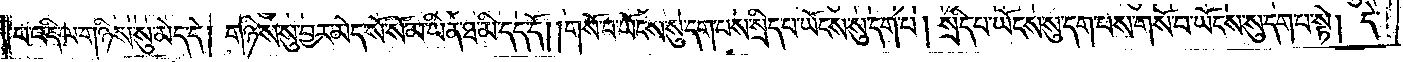པ་འདི་ལ་གཉིས་སུ་མེད་དེ། གཉིས་སུ་བྱར་མེད་སོ་སོ་མ་ཡིན་ཐ་མི་དད་དོ། །གསོ་བ་ཡོངས་སུ་དག་པས་སྲིད་པ་ཡོངས་སུ་དག་པ། སྲིད་པ་ཡོངས་སུ་དག་པས་གསོ་བ་ཡོངས་སུ་དག་པ་སྟེ། དེ་
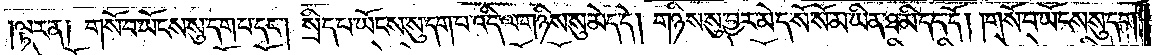ལྟར་ན༑ གསོ་བ་ཡོངས་སུ་དག་པ་དང༌། སྲིད་པ་ཡོངས་སུ་དག་པ་འདི་ལ་གཉིས་སུ་མེད་དེ། གཉིས་སུ་བྱར་མེད་སོ་སོ་མ་ཡིན་ཐ་མི་དད་དོ། །གསོ་བ་ཡོངས་སུ་དག་
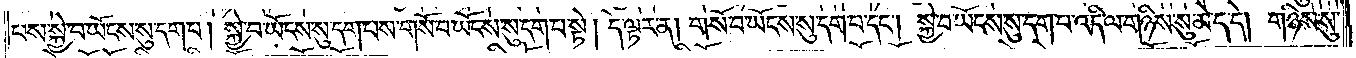པས་སྐྱེ་བ་ཡོངས་སུ་དག་པ། སྐྱེ་བ་ཡོངས་སུ་དག་པས་གསོ་བ་ཡོངས་སུ་དག་པ་སྟེ། དེ་ལྟར་ན། གསོ་བ་ཡོངས་སུ་དག་པ་དང༌། སྐྱེ་བ་ཡོངས་སུ་དག་པ་འདི་ལ་གཉིས་སུ་མེད་དེ། གཉིས་སུ་
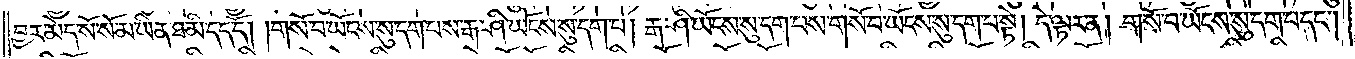བྱར་མེད་སོ་སོ་མ་ཡིན་ཐ་མི་དད་དོ། །གསོ་བ་ཡོངས་སུ་དག་པས་རྒ་ཤི་ཡོངས་སུ་དག་པ། རྒ་ཤི་ཡོངས་སུ་དག་པས་གསོ་བ་ཡོངས་སུ་དག་པ་སྟེ། དེ་ལྟར་ན། གསོ་བ་ཡོངས་སུ་དག་པ་དང༌།
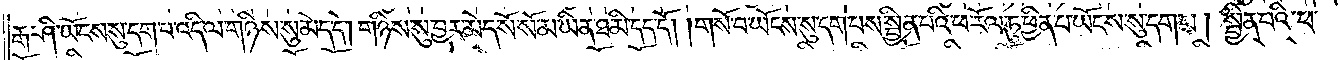རྒ་ཤི་ཡོངས་སུ་དག་པ་འདི་ལ་གཉིས་སུ་མེད་དེ། གཉིས་སུ་བྱར་མེད་སོ་སོ་མ་ཡིན་ཐ་མི་དད་དོ། །གསོ་བ་ཡོངས་སུ་དག་པས་སྦྱིན་པའི་ཕ་རོལ་ཏུ་ཕྱིན་པ་ཡོངས་སུ་དག་པ། སྦྱིན་པའི་ཕ་
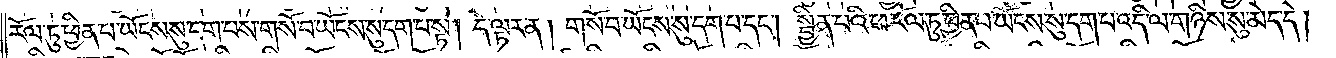རོལ་ཏུ་ཕྱིན་པ་ཡོངས་སུ་དག་པས་གསོ་བ་ཡོངས་སུ་དག་པ་སྟེ། དེ་ལྟར་ན། གསོ་བ་ཡོངས་སུ་དག་པ་དང༌། སྦྱིན་པའི་ཕ་རོལ་ཏུ་ཕྱིན་པ་ཡོངས་སུ་དག་པ་འདི་ལ་གཉིས་སུ་མེད་དེ།
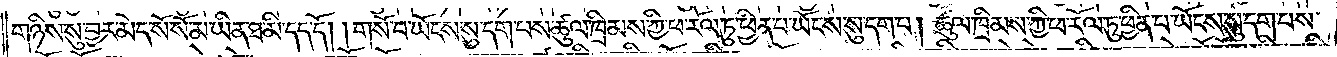གཉིས་སུ་བྱར་མེད་སོ་སོ་མ་ཡིན་ཐ་མི་དད་དོ། །གསོ་བ་ཡོངས་སུ་དག་པས་ཚུལ་ཁྲིམས་ཀྱི་ཕ་རོལ་ཏུ་ཕྱིན་པ་ཡོངས་སུ་དག་པ། ཚུལ་ཁྲིམས་ཀྱི་ཕ་རོལ་ཏུ་ཕྱིན་པ་ཡོངས་སུ་དག་པས་
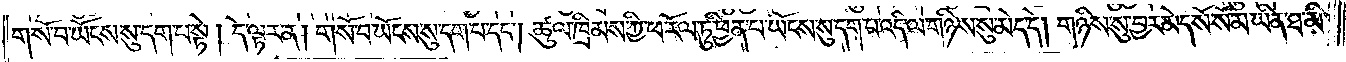གསོ་བ་ཡོངས་སུ་དག་པ་སྟེ། དེ་ལྟར་ན། གསོ་བ་ཡོངས་སུ་དག་པ་དང༌། ཚུལ་ཁྲིམས་ཀྱི་ཕ་རོལ་ཏུ་ཕྱིན་པ་ཡོངས་སུ་དག་པ་འདི་ལ་གཉིས་སུ་མེད་དེ། གཉིས་སུ་བྱར་མེད་སོ་སོ་མ་ཡིན་ཐ་མི་
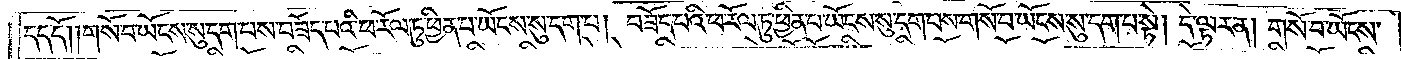དད་དོ། །གསོ་བ་ཡོངས་སུ་དག་པས་བཟོད་པའི་ཕ་རོལ་ཏུ་ཕྱིན་པ་ཡོངས་སུ་དག་པ། བཟོད་པའི་ཕ་རོལ་ཏུ་ཕྱིན་པ་ཡོངས་སུ་དག་པས་གསོ་བ་ཡོངས་སུ་དག་པ་སྟེ། དེ་ལྟར་ན། གསོ་བ་ཡོངས་
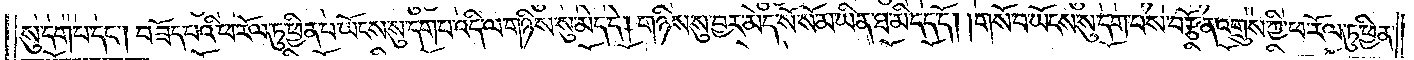སུ་དག་པ་དང༌། བཟོད་པའི་ཕ་རོལ་ཏུ་ཕྱིན་པ་ཡོངས་སུ་དག་པ་འདི་ལ་གཉིས་སུ་མེད་དེ། གཉིས་སུ་བྱར་མེད་སོ་སོ་མ་ཡིན་ཐ་མི་དད་དོ། །གསོ་བ་ཡོངས་སུ་དག་པས་བརྩོན་འགྲུས་ཀྱི་ཕ་རོལ་ཏུ་ཕྱིན་
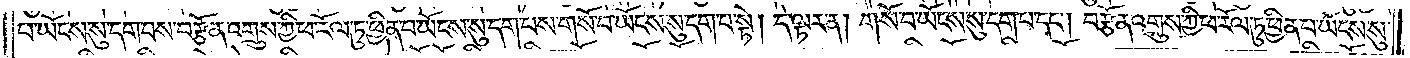པ་ཡོངས་སུ་དག་པས་བརྩོན་འགྲུས་ཀྱི་ཕ་རོལ་ཏུ་ཕྱིན་པ་ཡོངས་སུ་དག་པས་གསོ་བ་ཡོངས་སུ་དག་པ་སྟེ། དེ་ལྟར་ན། གསོ་བ་ཡོངས་སུ་དག་པ་དང༌། བརྩོན་འགྲུས་ཀྱི་ཕ་རོལ་ཏུ་ཕྱིན་པ་ཡོངས་སུ་
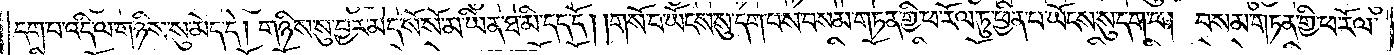དག་པ་འདི་ལ་གཉིས་སུ་མེད་དེ། གཉིས་སུ་བྱར་མེད་སོ་སོ་མ་ཡིན་ཐ་མི་དད་དོ། །གསོ་བ་ཡོངས་སུ་དག་པས་བསམ་གཏན་གྱི་ཕ་རོལ་ཏུ་ཕྱིན་པ་ཡོངས་སུ་དག་པ། བསམ་གཏན་གྱི་ཕ་རོལ་
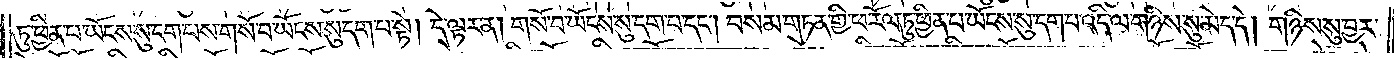ཏུ་ཕྱིན་པ་ཡོངས་སུ་དག་པས་གསོ་བ་ཡོངས་སུ་དག་པ་སྟེ། དེ་ལྟར་ན། གསོ་བ་ཡོངས་སུ་དག་པ་དང༌། བསམ་གཏན་གྱི་ཕ་རོལ་ཏུ་ཕྱིན་པ་ཡོངས་སུ་དག་པ་འདི་ལ་གཉིས་སུ་མེད་དེ། གཉིས་སུ་བྱར་
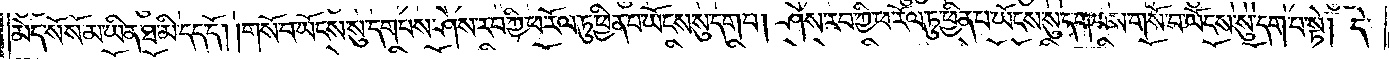མེད་སོ་སོ་མ་ཡིན་ཐ་མི་དད་དོ། །གསོ་བ་ཡོངས་སུ་དག་པས་ཤེས་རབ་ཀྱི་ཕ་རོལ་ཏུ་ཕྱིན་པ་ཡོངས་སུ་དག་པ། ཤེས་རབ་ཀྱི་ཕ་རོལ་ཏུ་ཕྱིན་པ་ཡོངས་སུ་དག་པས་གསོ་བ་ཡོངས་སུ་དག་པ་སྟེ། དེ་
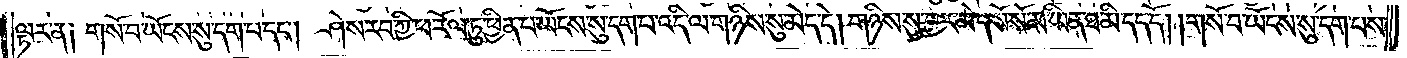ལྟར་ན༑ གསོ་བ་ཡོངས་སུ་དག་པ་དང༌། ཤེས་རབ་ཀྱི་ཕ་རོལ་ཏུ་ཕྱིན་པ་ཡོངས་སུ་དག་པ་འདི་ལ་གཉིས་སུ་མེད་དེ། གཉིས་སུ་བྱར་མེད་སོ་སོ་མ་ཡིན་ཐ་མི་དད་དོ། །གསོ་བ་ཡོངས་སུ་དག་པས་
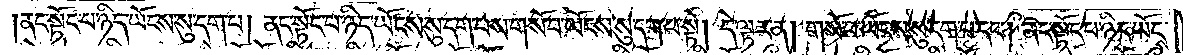ནང་སྟོང་པ་ཉིད་ཡོངས་སུ་དག་པ། ནང་སྟོང་པ་ཉིད་ཡོངས་སུ་དག་པས་གསོ་བ་ཡོངས་སུ་དག་པ་སྟེ། དེ་ལྟར་ན། གསོ་བ་ཡོངས་སུ་དག་པ་དང༌། ནང་སྟོང་པ་ཉིད་ཡོངས་
